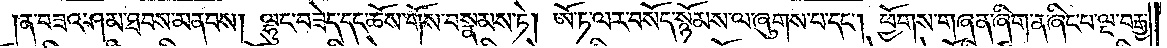ན་བཟའ་ཤམ་ཐབས་མནབས། ལྷུང་བཟེད་དང་ཆོས་གོས་བསྣམས་ཏེ། ཨོ་ཏ་ལ་ར་བསོད་སྙོམས་ལ་ཞུགས་པ་དང༌། ཕྱོགས་གཞན་ཞིག་ན་ཞིང་པ་ལྔ་བརྒྱ་
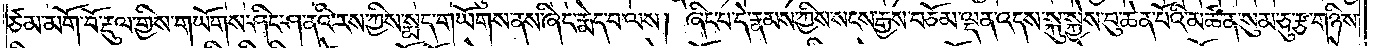ཙམ་མགོ་བོ་རྡུལ་གྱིས་གཡོགས་ཤིང་ཤ་ནའི་རས་ཀྱིས་སྨད་གཡོགས་ནས་ཞིང་རྨོད་པ་ལས། ཞིང་པ་དེ་རྣམས་ཀྱིས་སངས་རྒྱས་བཅོམ་ལྡན་འདས་སྐུ་སྐྱེས་བུ་ཆེན་པོའི་མཚན་སུམ་ཅུ་རྩ་གཉིས་
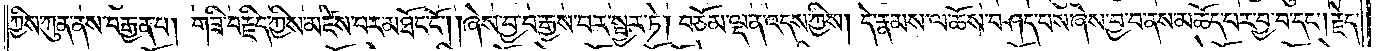ཀྱིས་ཀུན་ནས་བརྒྱན་པ། གཟི་བརྗིད་ཀྱིས་མཛེས་པར་མཐོང་ངོ༌། །ཞེས་བྱ་བ་རྒྱས་པར་སྦྱར་ཏེ། བཅོམ་ལྡན་འདས་ཀྱིས། དེ་རྣམས་ལ་ཆོས་བཤད་པས་ཞེས་བྱ་བ་ནས་མཆོད་པར་བྱ་བ་དང༌། རྗེད་
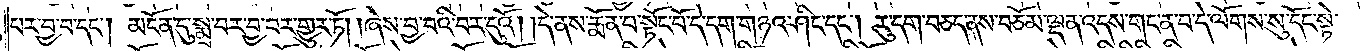པར་བྱ་བ་དང༌། མངོན་དུ་སྨྲ་བར་བྱ་བར་གྱུར་ཏོ། །ཞེས་བྱ་བའི་བར་དུའོ། །དེ་ནས་རྨོན་པ་སྟོང་པོ་དེ་དག་གཉའ་ཤིང་དང༌། རུ་དག་བཅད་ནས་བཅོམ་ལྡན་འདས་གང་ན་བ་དེ་ལོགས་སུ་དོང་སྟེ་
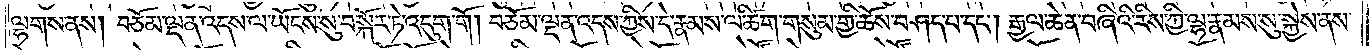ལྷགས་ནས། བཅོམ་ལྡན་འདས་ལ་ཡོངས་སུ་བསྐོར་ཏེ་འདུག་གོ། བཅོམ་ལྡན་འདས་ཀྱིས་དེ་རྣམས་ལ་ཚིག་གསུམ་གྱི་ཆོས་བཤད་པ་དང༌། རྒྱལ་ཆེན་བཞིའི་རིས་ཀྱི་ལྷ་རྣམས་སུ་སྐྱེས་ནས་
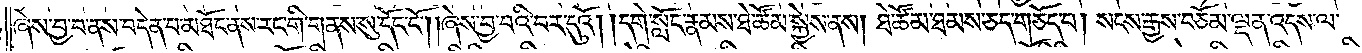ཞེས་བྱ་བ་ནས་བདེན་པ་མཐོང་ནས་རང་གི་གནས་སུ་དོང་ངོ༌། །ཞེས་བྱ་བའི་བར་དུའོ། །དགེ་སློང་རྣམས་ཐེ་ཚོམ་སྐྱེས་ནས། ཐེ་ཚོམ་ཐམས་ཅད་གཅོད་པ། སངས་རྒྱས་བཅོམ་ལྡན་འདས་ལ་
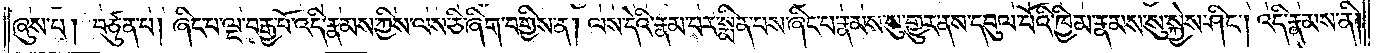ཞུས་པ། བཙུན་པ། ཞིང་པ་ལྔ་བརྒྱ་བོ་འདི་རྣམས་ཀྱིས་ལས་ཅི་ཞིག་བགྱིས་ན། ལས་དེའི་རྣམ་པར་སྨིན་པས་ཞིང་པ་རྣམས་སུ་གྱུར་ནས་དབུལ་པོའི་ཁྱིམ་རྣམས་སུ་སྐྱེས་ཤིང༌། འདི་རྣམས་ནི།
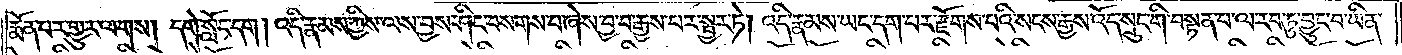རྨོན་པར་གྱུར་ལགས། དགེ་སློང་དག། འདི་རྣམས་ཀྱིས་ལས་བྱས་ཤིང་བསགས་པ་ཞེས་བྱ་བ་རྒྱས་པར་སྦྱར་ཏེ། འདི་རྣམས་ཡང་དག་པར་རྫོགས་པའི་སངས་རྒྱས་འོད་སྲུང་གི་བསྟན་པ་ལ་རབ་ཏུ་བྱུང་བ་ཡིན་
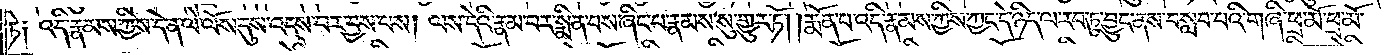ཏེ༑ འདི་རྣམས་ཀྱིས་དེ་ན་ལེ་ལོས་དུས་འདས་པར་བྱས་པས། ལས་དེའི་རྣམ་པར་སྨིན་པས་ཞིང་པ་རྣམས་སུ་གྱུར་ཏོ། །རྨོན་པ་འདི་རྣམས་ཀྱིས་ཀྱང་དེ་ཉིད་ལ་རབ་ཏུ་བྱུང་བ་ནས་བསླབ་པའི་གཞི་ཕྲ་མོ་ཕྲ་མོ་
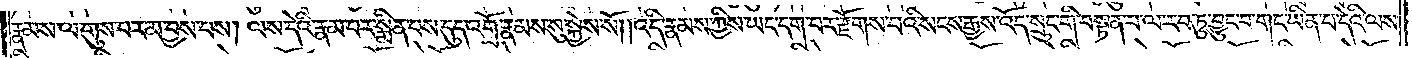རྣམས་ལ་གུས་པར་མ་བྱས་པས། ལས་དེའི་རྣམ་པར་སྨིན་པས་དུད་འགྲོ་རྣམས་སུ་སྐྱེས་སོ། །འདི་རྣམས་ཀྱིས་ཡང་དག་པར་རྫོགས་པའི་སངས་རྒྱས་འོད་སྲུང་གི་བསྟན་པ་ལ་རབ་ཏུ་བྱུང་བ་གང་ཡིན་པ་དེའི་ལས་
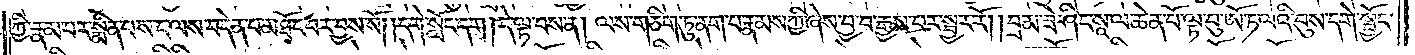ཀྱི་རྣམ་པར་སྨིན་པས་ང་ལས་བདེན་པ་མཐོང་བར་བྱས་སོ། །དགེ་སློང་དག །དེ་ལྟ་བས་ན། ལས་གཅིག་ཏུ་ནག་པ་རྣམས་ཀྱི་ཞེས་བྱ་བ་རྒྱས་པར་སྦྱར་རོ། །བྲམ་ཟེ་ཤིང་སཱ་ལ་ཆེན་པོ་ལྟ་བུ་ཨོ་ཏ་ལའི་བུས་དགེ་སྦྱོང་
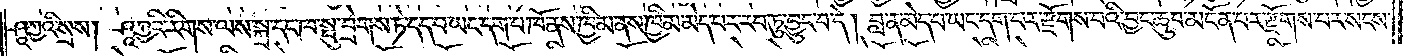ཤཱཀྱའི་སྲས། ཤཱཀྱའི་རིགས་ལས་སྐྲ་དང་ཁ་སྤུ་བྲེགས་ཏེ་དད་པ་ཡང་དག་པ་ཁོ་ནས་ཁྱིམ་ནས་ཁྱིམ་མེད་པར་རབ་ཏུ་བྱུང་བ་དེ། བླ་ན་མེད་པ་ཡང་དག་པར་རྫོགས་པའི་བྱང་ཆུབ་མངོན་པར་རྫོགས་པར་སངས་
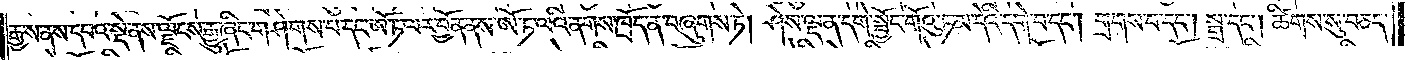རྒྱས་ནས་དཔའ་སྡེ་ནས་ལྗོངས་རྒྱུ་ཞིང་གཤེགས་པ་དང་ཨོ་ཏ་ལར་བྱོན་ནས་ཨོ་ཏ་ལའི་ནགས་ཁྲོད་ན་བཞུགས་ཏེ། ཤེས་ལྡན་དགེ་སྦྱོང་གོའུ་ཏ་མ་དེའི་དགེ་བ་དང༌། གྲགས་པ་དང༌། སྒྲ་དང༌། ཚིགས་སུ་བཅད་
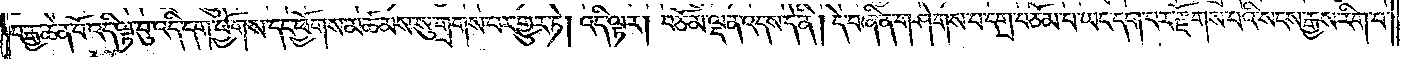པ་རྒྱ་ཆེན་པོ་འདི་ལྟ་བུ་འདི་དག་ཕྱོགས་དང་ཕྱོགས་མཚམས་སུ་གྲགས་པར་གྱུར་ཏེ། འདི་ལྟར། བཅོམ་ལྡན་འདས་དེ་ནི། དེ་བཞིན་གཤེགས་པ་དགྲ་བཅོམ་པ་ཡང་དག་པར་རྫོགས་པའི་སངས་རྒྱས་རིག་པ་
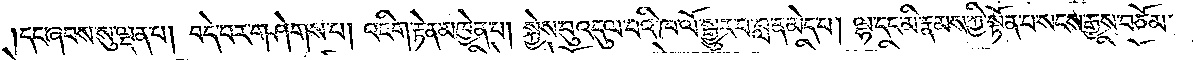།དང་ཞབས་སུ་ལྡན་པ། བདེ་བར་གཤེགས་པ། འཇིག་རྟེན་མཁྱེན་པ། སྐྱེས་བུ་འདུལ་བའི་ཁ་ལོ་སྒྱུར་བ་བླ་ན་མེད་པ། ལྷ་དང་མི་རྣམས་ཀྱི་སྟོན་པ་སངས་རྒྱས་བཅོམ་
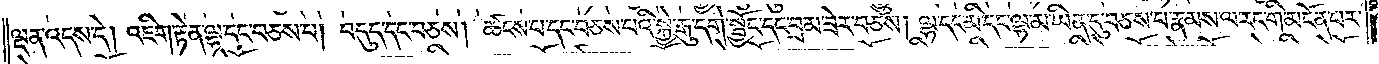ལྡན་འདས་དེ། འཇིག་རྟེན་ལྷ་དང་བཅས་པ། བདུད་དང་བཅས། ཚངས་པ་དང་བཅས་པའི་སྐྱེ་རྒུ་དགེ་སྦྱོང་དང་བྲམ་ཟེར་བཅས། ལྷ་དང་མི་དང་ལྷ་མ་ཡིན་དུ་བཅས་པ་རྣམས་ལ་རང་གི་མངོན་པར་
